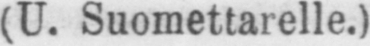(U. Suomettarelle.)
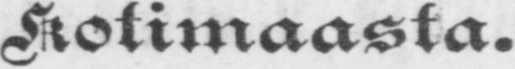Kotimaasta.
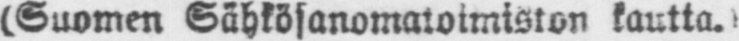(Suomen Sähkösanomatoimtston kautta.!
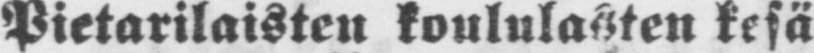Pietarilaisten koululasten kesä-
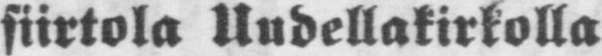siirtola Uudellakirkolla
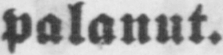palanut.
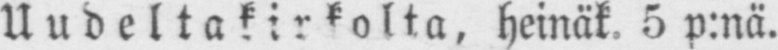Uudeltakirkolta, heinäk 5 p:nä.
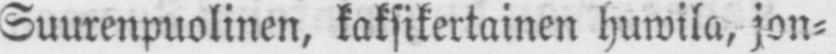Suurenpuolinen, kaksikertainen huwila, jon-
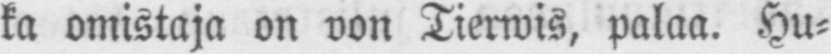ka omistaja on von Tierwis, palaa. Hu-
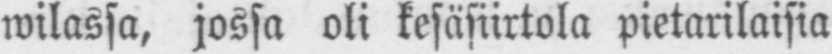wilassa, jossa oli kesäsiirtola pietarilaisia
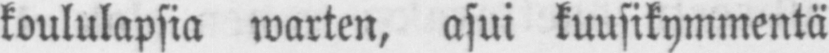koululapsia warten, asui kuusikymmentä
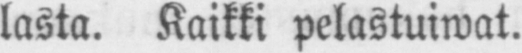lasta. Kaikki pelastuiwat.
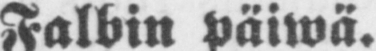Falbin Päiwä.
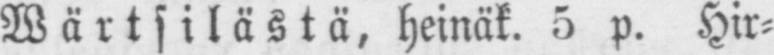Wärtsilästaä heinäk. 5 p. Hir-
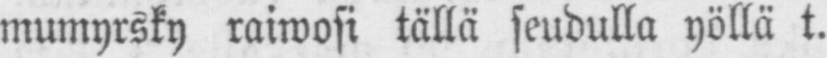mumyrsky raiwosi tällä seudulla yöllä t.
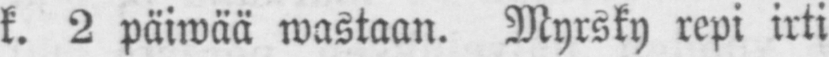k. 2 päiwää wastaan. Myrsky repi irti
